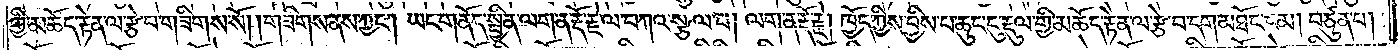གྱི་མཆོད་རྟེན་ལ་རྩེ་བ་གཟིགས་སོ། །གཟིགས་ནས་ཀྱང༌། ཡང་གནོད་སྦྱིན་ལག་ན་རྡོ་རྗེ་ལ་བཀའ་སྩལ་པ། ལག་ན་རྡོ་རྗེ། ཁྱོད་ཀྱིས་བྱིས་པ་ཆུང་ངུ་རྡུལ་གྱི་མཆོད་རྟེན་ལ་རྩེ་བ་དག་མཐོང་ངམ། བཙུན་པ།
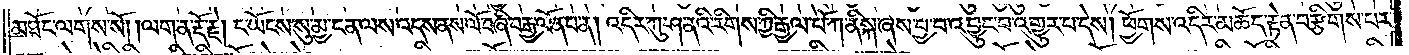མཐོང་ལགས་སོ། །ལག་ན་རྡོ་རྗེ། ང་ཡོངས་སུ་མྱ་ངན་ལས་འདས་ནས་ལོ་བཞི་བརྒྱ་ལོན་པ་ན། འདིར་ཀུ་ཤ་ནའི་རིགས་ཀྱི་རྒྱལ་པོ་ཀ་ནི་སྐ་ཞེས་བྱ་བ་བྱེད་པར་འགྱུར་པ་དེས། ཕྱོགས་འདིར་མཆོད་རྟེན་བརྩིགས་པར་
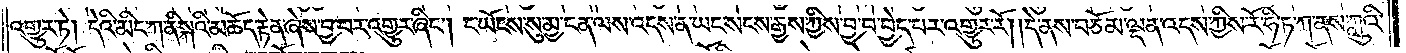འགྱུར་ཏེ། དེའི་མིང་ཀ་ནི་སྐའི་མཆོད་རྟེན་ཞེས་བྱ་བར་འགྱུར་ཞིང༌། ང་ཡོངས་སུ་མྱ་ངན་ལས་འདས་ན་ཡང་སངས་རྒྱས་ཀྱིས་བྱ་བ་བྱེད་པར་འགྱུར་རོ། །དེ་ནས་བཅོམ་ལྡན་འདས་ཀྱིས་རོ་ཧི་ཏ་ཀ་ནས་ཀླུའི་
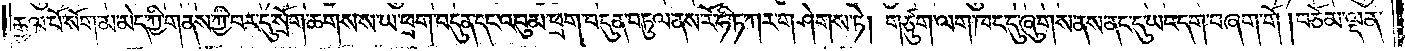རྒྱལ་པོ་སོག་མ་མེད་ཀྱི་གནས་ཀྱི་བར་དུ་སྲོག་ཆགས་ས་ཡ་ཕྲག་བདུན་དང་འབུམ་ཕྲག་བདུན་བཏུལ་ནས་རོ་ཧི་ཏ་ཀར་གཤེགས་ཏེ། གཙུག་ལག་ཁང་དུ་ཞུགས་ནས་ནང་དུ་ཡང་དག་བཞག་གོ །བཅོམ་ལྡན་
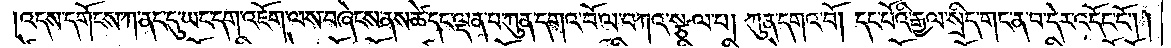འདས་དགོངས་ཀ་ནང་དུ་ཡང་དག་འཇོག་ལས་བཞེངས་ནས་ཚེ་དང་ལྡན་པ་ཀུན་དགའ་བོ་ལ་བཀའ་སྩལ་པ། ཀུན་དགའ་བོ། དང་པོའི་རྒྱལ་སྲིད་གང་ན་བ་དེར་འདོང་ངོ༌།
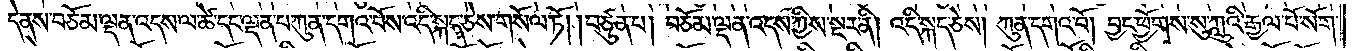དེ་ནས་བཅོམ་ལྡན་འདས་ལ་ཚེ་དང་ལྡན་པ་ཀུན་དགའ་བོས་འདི་སྐད་ཅེས་གསོལ་ཏོ། །བཙུན་པ། བཅོམ་ལྡན་འདས་ཀྱིས་སྔར་ནི། འདི་སྐད་ཅེས། ཀུན་དགའ་བོ། བྱང་ཕྱོགས་སུ་ཀླུའི་རྒྱལ་པོ་སོག་
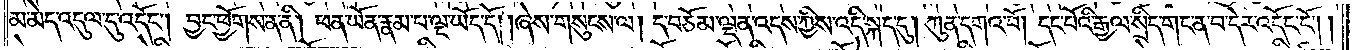མ་མེད་འདུལ་དུ་འདོང༌། བྱང་ཕྱོགས་ན་ནི། ཕན་ཡོན་རྣམ་པ་ལྔ་ཡོད་དོ། །ཞེས་གསུངས་ལ། ད་བཅོམ་ལྡན་འདས་ཀྱིས་འདི་སྐད་དུ། ཀུན་དགའ་བོ། དང་པོའི་རྒྱལ་སྲིད་གང་ན་བ་དེར་འདོང་ངོ༌། །
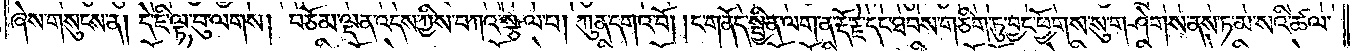ཞེས་གསུངས་ན། དེ་ཇི་ལྟ་བུ་ལགས། བཅོམ་ལྡན་འདས་ཀྱིས་བཀའ་སྩལ་པ། ཀུན་དགའ་བོ། །ང་གནོད་སྦྱིན་ལག་ན་རྡོ་རྗེ་དང་ཐབས་གཅིག་ཏུ་བྱང་ཕྱོགས་སུ་གཤེགས་ནས་ཏ་མ་སའི་ཚལ་
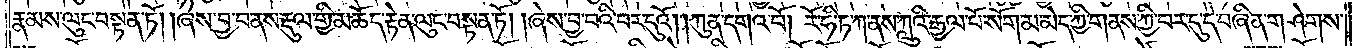རྣམས་ལུང་བསྟན་ཏོ། །ཞེས་བྱ་བ་ནས་རྡུལ་གྱི་མཆོད་རྟེན་ལུང་བསྟན་ཏོ། །ཞེས་བྱ་བའི་བར་དུའོ། །ཀུན་དགའ་བོ། རོ་ཧི་ཏ་ཀ་ནས་ཀླུའི་རྒྱལ་པོ་སོག་མ་མེད་ཀྱི་གནས་ཀྱི་བར་དུ་དེ་བཞིན་གཤེགས་
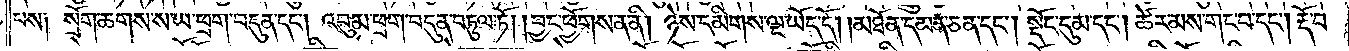པས༑ སྲོག་ཆགས་ས་ཡ་ཕྲག་བདུན་དང༌། འབུམ་ཕྲག་བདུན་བཏུལ་ཏོ། །བྱང་ཕྱོགས་ན་ནི། ཉེས་དམིགས་ལྔ་ཡོད་དོ། །མཐོ་ན་དམན་ཅན་དང༌། སྡོང་དུམ་དང༌། ཚེར་མས་གང་བ་དང༌། རྡོ་བ་
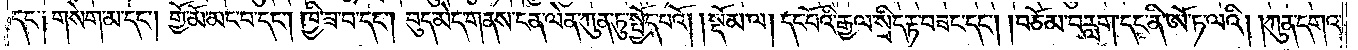དང་༑ གསེག་མ་དང༌། གྱོ་མོ་མང་བ་དང༌། ཁྱི་ཟ་བ་དང༌། བུད་མེད་གནས་ངན་ལེན་ཀུན་ཏུ་སྤྱོད་པའོ།    །སྡོམ་ལ། དང་པོའི་རྒྱལ་སྲིད་རྟག་བཟང་དང༌། བཅོམ་དང་ནི་ཨོ་ཏ་ལའི། །ཀུན་དགའ་
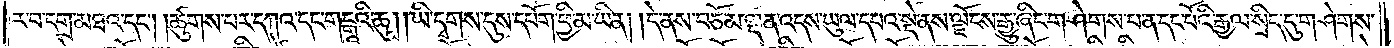ར་བ་དགྲ་མཐའ་དང༌། །ཚུགས་པར་དཀའ་དང་གངྒཱའི་ཆུ། །ཡི་དྭགས་དུས་དཔག་ཕྱི་མ་ཡིན། །དེ་ནས་བཅོམ་ལྡན་འདས་ཡུལ་དཔའ་སྡེ་ནས་ལྗོངས་རྒྱུ་ཞིང་གཤེགས་པ་ན་དང་པོའི་རྒྱལ་སྲིད་དུ་གཤེགས་
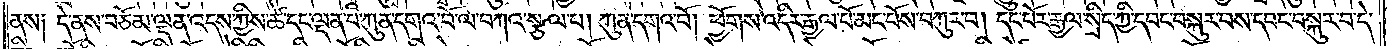ནས༑ དེ་ནས་བཅོམ་ལྡན་འདས་ཀྱིས་ཚེ་དང་ལྡན་པ་ཀུན་དགའ་བོ་ལ་བཀའ་སྩལ་པ། ཀུན་དགའ་བོ། ཕྱོགས་འདིར་རྒྱལ་པོ་མང་པོས་བསྐུར་བ། དང་པོར་རྒྱལ་སྲིད་ཀྱི་དབང་བསྐུར་བས་དབང་བསྐུར་བ་དེ་
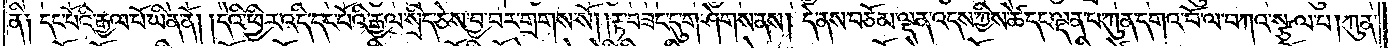ནི༑ དང་པོའི་རྒྱལ་པོ་ཡིན་ནོ། །དེའི་ཕྱིར་འདི་དང་པོའི་རྒྱལ་སྲིད་ཅེས་བྱ་བར་གྲགས་སོ། །རྟ་བཟང་དུ་གཤེགས་ནས། དེ་ནས་བཅོམ་ལྡན་འདས་ཀྱིས་ཚེ་དང་ལྡན་པ་ཀུན་དགའ་བོ་ལ་བཀའ་སྩལ་པ། ཀུན་
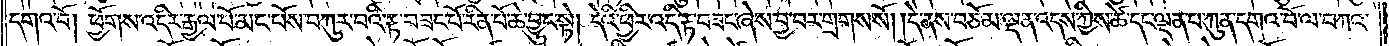དགའ་བོ། ཕྱོགས་འདིར་རྒྱལ་པོ་མང་པོས་བཀུར་བའི་རྟ་བཟང་པོ་རིན་པོ་ཆེ་བྱུང་སྟེ། དེའི་ཕྱིར་འདི་རྟ་བཟང་ཞེས་བྱ་བར་གྲགས་སོ། །དེ་ནས་བཅོམ་ལྡན་འདས་ཀྱིས་ཚེ་དང་ལྡན་པ་ཀུན་དགའ་བོ་ལ་བཀའ་
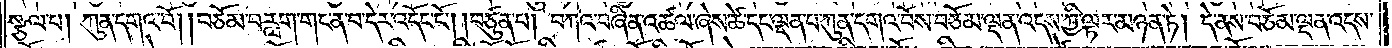སྩལ་པ། ཀུན་དགའ་བོ། །བཅོམ་བརླག་གང་ན་བ་དེར་འདོང་ངོ༌། །བཙུན་པ། བཀའ་བཞིན་འཚལ་ཞེས་ཚེ་དང་ལྡན་པ་ཀུན་དགའ་བོས་བཅོམ་ལྡན་འདས་ཀྱི་ལྟར་མཉན་ཏེ། དེ་ནས་བཅོམ་ལྡན་འདས་
